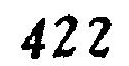422
